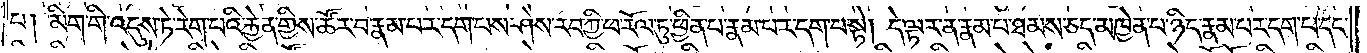པ། མིག་གི་འདུས་ཏེ་རེག་པའི་རྐྱེན་གྱིས་ཚོར་བ་རྣམ་པར་དག་པས་ཤེས་རབ་ཀྱི་ཕ་རོལ་ཏུ་ཕྱིན་པ་རྣམ་པར་དག་པ་སྟེ། དེ་ལྟར་ན་རྣམ་པ་ཐམས་ཅད་མཁྱེན་པ་ཉིད་རྣམ་པར་དག་པ་དང༌།
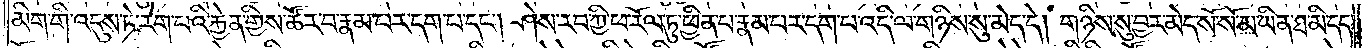མིག་གི་འདུས་ཏེ་རེག་པའི་རྐྱེན་གྱིས་ཚོར་བ་རྣམ་པར་དག་པ་དང༌། ཤེས་རབ་ཀྱི་ཕ་རོལ་ཏུ་ཕྱིན་པ་རྣམ་པར་དག་པ་འདི་ལ་གཉིས་སུ་མེད་དེ། གཉིས་སུ་བྱར་མེད་སོ་སོ་མ་ཡིན་ཐ་མི་དད་
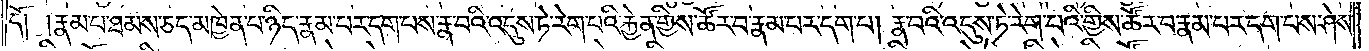དོ། །རྣམ་པ་ཐམས་ཅད་མཁྱེན་པ་ཉིད་རྣམ་པར་དག་པས་རྣ་བའི་འདུས་ཏེ་རེག་པའི་རྐྱེན་གྱིས་ཚོར་བ་རྣམ་པར་དག་པ། རྣ་བའི་འདུས་ཏེ་རེག་པའི་རྐྱེན་གྱིས་ཚོར་བ་རྣམ་པར་དག་པས་ཤེས་
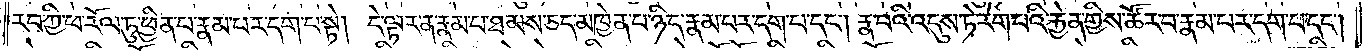རབ་ཀྱི་ཕ་རོལ་ཏུ་ཕྱིན་པ་རྣམ་པར་དག་པ་སྟེ། དེ་ལྟར་ན་རྣམ་པ་ཐམས་ཅད་མཁྱེན་པ་ཉིད་རྣམ་པར་དག་པ་དང༌། རྣ་བའི་འདུས་ཏེ་རེག་པའི་རྐྱེན་གྱིས་ཚོར་བ་རྣམ་པར་དག་པ་དང༌།
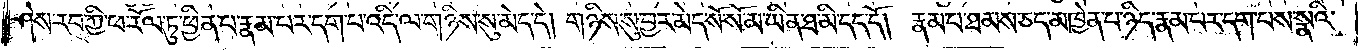ཤེས་རབ་ཀྱི་ཕ་རོལ་ཏུ་ཕྱིན་པ་རྣམ་པར་དག་པ་འདི་ལ་གཉིས་སུ་མེད་དེ། གཉིས་སུ་བྱར་མེད་སོ་སོ་མ་ཡིན་ཐ་མི་དད་དོ། །རྣམ་པ་ཐམས་ཅད་མཁྱེན་པ་ཉིད་རྣམ་པར་དག་པས་སྣའི་
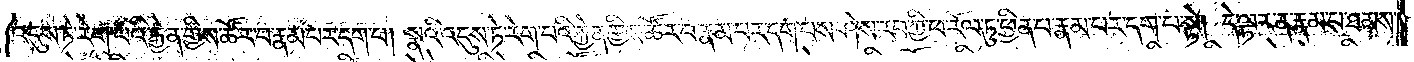འདུས་ཏེ་རེག་པའི་རྐྱེན་གྱིས་ཚོར་བ་རྣམ་པར་དག་པ། སྣའི་འདུས་ཏེ་རེག་པའི་རྐྱེན་གྱིས་ཚོར་བ་རྣམ་པར་དག་པས་ཤེས་རབ་ཀྱི་ཕ་རོལ་ཏུ་ཕྱིན་པ་རྣམ་པར་དག་པ་སྟེ། དེ་ལྟར་ན་རྣམ་པ་ཐམས་
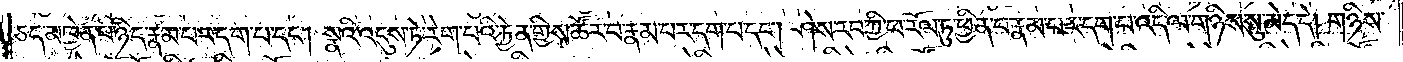ཅད་མཁྱེན་པ་ཉིད་རྣམ་པར་དག་པ་དང༌། སྣའི་འདུས་ཏེ་རེག་པའི་རྐྱེན་གྱིས་ཚོར་བ་རྣམ་པར་དག་པ་དང༌། ཤེས་རབ་ཀྱི་ཕ་རོལ་ཏུ་ཕྱིན་པ་རྣམ་པར་དག་པ་འདི་ལ་གཉིས་སུ་མེད་དེ། གཉིས་
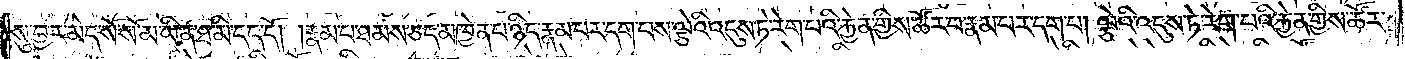སུ་བྱར་མེད་སོ་སོ་མ་ཡིན་ཐ་མི་དད་དོ། །རྣམ་པ་ཐམས་ཅད་མཁྱེན་པ་ཉིད་རྣམ་པར་དག་པས་ལྕེའི་འདུས་ཏེ་རེག་པའི་རྐྱེན་གྱིས་ཚོར་བ་རྣམ་པར་དག་པ། ལྕེའི་འདུས་ཏེ་རེག་པའི་རྐྱེན་གྱིས་ཚོར་
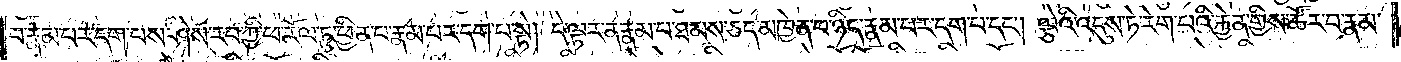བ་རྣམ་པར་དག་པས་ཤེས་རབ་ཀྱི་ཕ་རོལ་ཏུ་ཕྱིན་པ་རྣམ་པ་དག་པ་སྟེ། དེ་ལྟར་ན་རྣམ་པ་ཐམས་ཅད་མཁྱེན་པ་ཉིད་རྣམ་པར་དག་པ་དང༌། ལྕེའི་འདུས་ཏེ་རེག་པའི་རྐྱེན་གྱིས་ཚོར་བ་རྣམ་
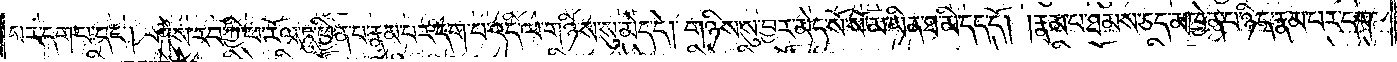པར་དག་པ་དང༌། ཤེས་རབ་ཀྱི་ཕ་རོལ་ཏུ་ཕྱིན་པ་རྣམ་པར་དག་པ་འདི་ལ་གཉིས་སུ་མེད་དེ། གཉིས་སུ་བྱར་མེད་སོ་སོ་མ་ཡིན་ཐ་མི་དད་དོ། །རྣམ་པ་ཐམས་ཅད་མཁྱེན་པ་ཉིད་རྣམ་པར་དག་
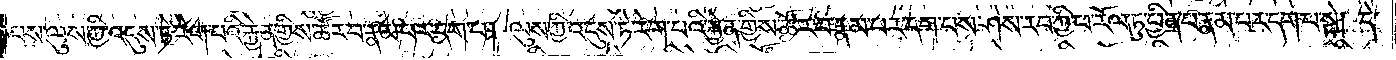པས་ལུས་ཀྱི་འདུས་ཏེ་རེག་པའི་རྐྱེན་གྱིས་ཚོར་བ་རྣམ་པར་དག་པ། ལུས་ཀྱི་འདུས་ཏེ་རེག་པའི་རྐྱེན་གྱིས་ཚོར་བ་རྣམ་པར་དག་པས་ཤེས་རབ་ཀྱི་ཕ་རོལ་ཏུ་ཕྱིན་པ་རྣམ་པར་དག་པ་སྟེ། དེ་
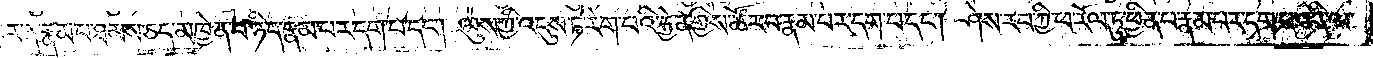ལྟར་ན་རྣམ་པ་ཐམས་ཅད་མཁྱེན་པ་ཉིད་རྣམ་པར་དག་པ་དང༌། ལུས་ཀྱི་འདུས་ཏེ་རེག་པ་རྐྱེན་གྱིས་ཚོར་བ་རྣམ་པར་དག་པ་དང༌། ཤེས་རབ་ཀྱི་ཕ་རོལ་ཏུ་ཕྱིན་པ་རྣམ་པར་དག་པ་འདི་ལ་
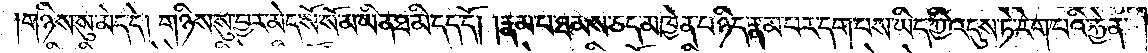གཉིས་སུ་མེད་དེ། གཉིས་སུ་བྱར་མེད་སོ་སོ་མ་ཡིན་ཐ་མི་དད་དོ། །རྣམ་པ་ཐམས་ཅད་མཁྱེན་པ་ཉིད་རྣམ་པར་དག་པས་ཡིད་ཀྱི་འདུས་ཏེ་རེག་པའི་རྐྱེན་
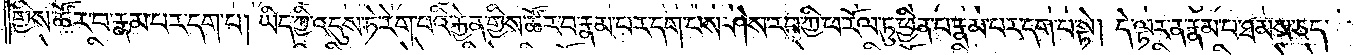གྱིས་ཚོར་བ་རྣམ་པར་དག་པ། ཡིད་ཀྱི་འདུས་ཏེ་རེག་པའི་རྐྱེན་གྱིས་ཚོར་བ་རྣམ་པར་དག་པས་ཤེས་རབ་ཀྱི་ཕ་རོལ་ཏུ་ཕྱིན་པ་རྣམ་པར་དག་པ་སྟེ། དེ་ལྟར་ན་རྣམ་པ་ཐམས་ཅད་
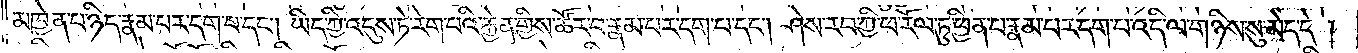མཁྱེན་པ་ཉིད་རྣམ་པར་དག་པ་དང༌། ཡིད་ཀྱི་འདུས་ཏེ་རེག་པའི་རྐྱེན་གྱིས་ཚོར་བ་རྣམ་པར་དག་པ་དང༌། ཤེས་རབ་ཀྱི་ཕ་རོལ་ཏུ་ཕྱིན་པ་རྣམ་པར་དག་པར་འདི་ལ་གཉིས་སུ་མེད་དེ།
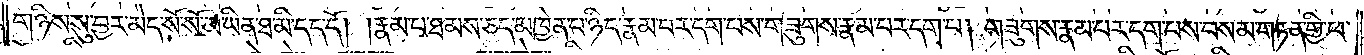གཉིས་སུ་བྱར་མེད་སོ་སོ་མ་ཡིན་ཐ་མི་དད་དོ། །རྣམ་པ་ཐམས་ཅད་མཁྱེན་པ་ཉིད་རྣམ་པར་དག་པས་གཟུགས་རྣམ་པར་དག་པ། གཟུགས་རྣམ་པར་དག་པས་བསམ་གཏན་གྱི་ཕ་
